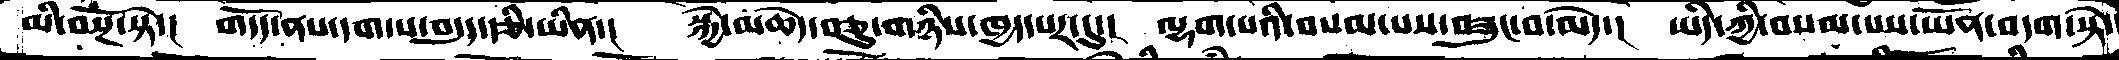མི་བསྔོ་སྟེ་།  གདོད་ནས་དག་པ་བདུད་རྩི་ཡིན་།   སྐྱེ་མཆེད་བཅུ་གཉིས་ཁྱད་པར་དུ་།  ལྷག་པའི་བསམ་པས་བཟུང་བ་མེད་།   ཡིད་ཀྱི་བསམ་པས་ཡོན་བདག་སྟེ་
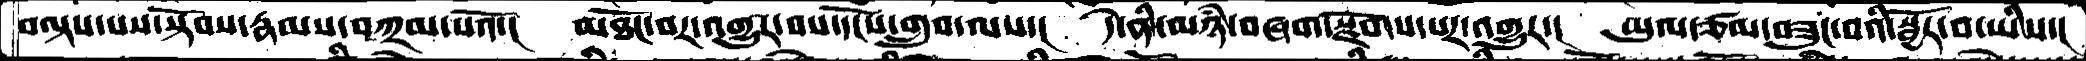བལྟས་པས་སྟོབས་རྣམས་བཀྲམ་པའོ་།   མཐོང་བར་འགྱུར་བས་དངོས་གྲུབ་ལས་།    དེ་ནི་མཉཾ་བཞག་སྫོགས་པར་འགྱུར་།   ཡུལ་ཙམ་བཟུང་བའི་སྦྱོར་བ་ཡིས་།
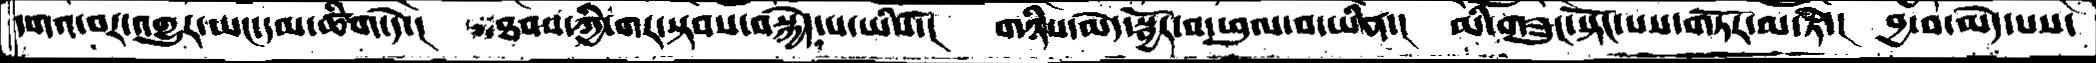དགའ་བར་འགྱུར་ཡང་དམ་ཚིག་དེ་།    ཐབས་ཀྱི་གར་སྟབས་བསྐྱེད་པ་ཡིས་།   གཉིས་མེད་སྦྱོར་བ་ཕུལ་བ་ཡིན་།   མི་གཟུང་སྟོང་པས་གཏོར་མ་ཏེ་།   བྱ་བ་མེད་པས་
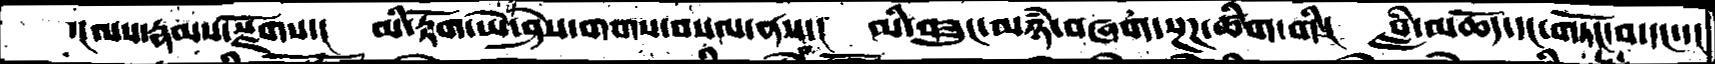་།ལས་རྣམས་སྫོགས་།    མི་རྟོག་ཡེ་ཤེས་གགས་བསལ་ནས་།   མི་བཟུང་མཉཾ་བཞག་སྔཌ་ཚིག་གི་།   བླཾ་མཆོད་དང་གཏོང་བ་དང་་།
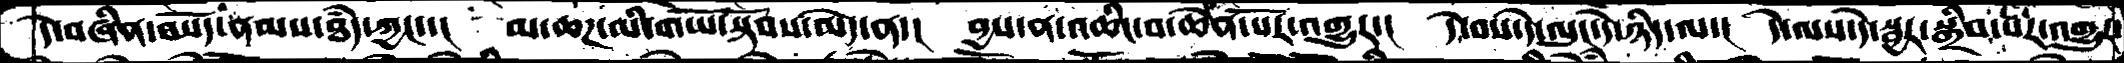དེ་བཞིན་བསོད་ནམས་ཐཾད་ཀྱང་་།   མ་ཆཌ་མི་གཡོ་སྟོབས་མེད་ན་།   བྱས་ན་འཆིང་བ་ཆེན་པོར་འགྱུར་།   དེ་བས་དེ་ལུང་དེ་ཉིད་ལ་།   དེ་ལས་དེ་སྦྱར་སྒྲིབ་པར་འགྱུར་
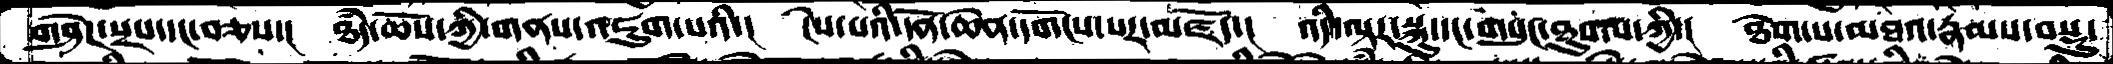གཤེཌ་སྲས་དང་བཅས་།  ཐཾད་ཆོས་ཀྱི་གནས་འཇུག་པའི་།  ངེས་པའི་དོན་ཆེན་དགོངས་པར་་མཛོད་།  འདི་ལྟར་སྐུ་དང་གསུང་ཐུགས་ཀྱི་།  ཐེག་པ་མཐའ་རྣམས་བསྡུ་
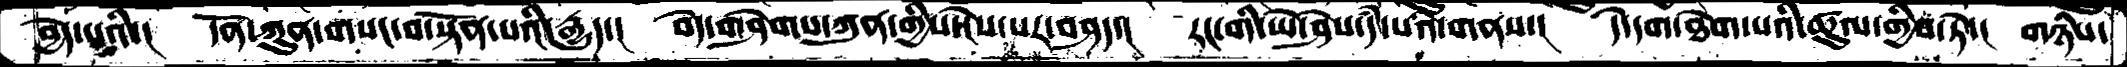བྱེད་པའི་།  དོན་ཀུན་གསང་བ་སྟོན་པའི་རྒྱུད་།  བདེ་གཤེགས་ཀུན་གྱིས་ངེས་པར་བཤད་།  རང་གི་ཡེ་ཤེས་དཾ་པའི་གནས་།  དེ་དག་ཐེག་པའི་ཚུལ་གྱིས་ཏེ་།  གཉིས་
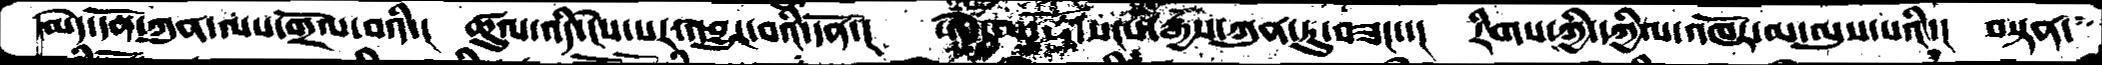མེད་དོན་ཀུན་ལས་གྲོལ་བའི་། ཚུལ་འདི་ངེས་པར་འབྱུང་བའི་དོན་།། ཨེ་མ་ཧོ་་སངས་རྒྱས་ཀུན་ཏུ་བཟང་་། རིགས་ཀྱི་དཀྱིལ་འཁོར་མ་ལུས་པའི་། བསྟན་
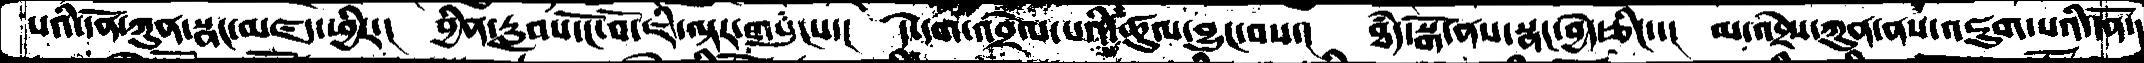པའི་དོན་ཀུན་སྣང་མཛད་ཕྱིར་།  བྱིན་རླབས་ངོ་བོ་ཇི་ལྟར་གསུངས་།  དེ་དག་འབྲེལ་པའི་ཚུལ་བྱུང་བས་།  ཐཾད་སྒོ་ནས་སྣང་བྱེད་ཅིང་་།  མ་འདྲེས་ཀུན་ནས་འཇུག་པའི་དོན་
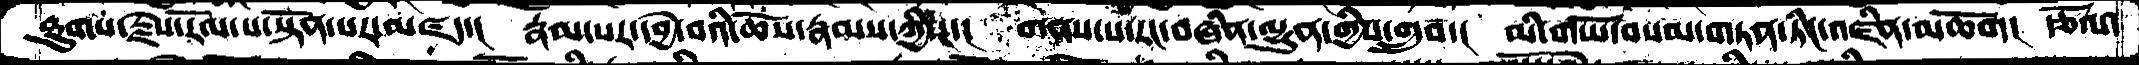ཐུགས་རྗེས་རོལ་པ་སྟོན་པར་མཛད་།  རྣམ་པར་དབྱེ་བའི་ཆོས་རྣམས་ཀྱིས་།  གནས་པ་རང་བཞིན་ལྷུན་གྱིས་གྲུབ་།  མི་གཡོ་་བསམ་གཏན་ཏིང་འཛིན་མཆོག།  རྩོལ་
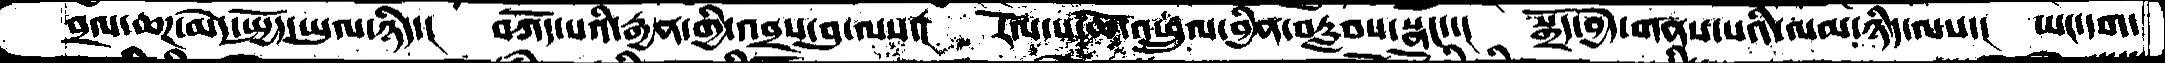བྲལ་ཆཌ་མེད་སྤྱོད་ཡུལ་ཉིད་།   བཀོད་པའི་རྒྱན་གྱི་འབྲས་བུ་ལས་།  རོལ་པ་ཆོ་འཕྲུལ་བྱིན་བརླབས་སྣང་་།  སྒྲོད་བྱེད་གནས་པའི་ལམ་ཉིད་ལས་།  ཡང་དག་
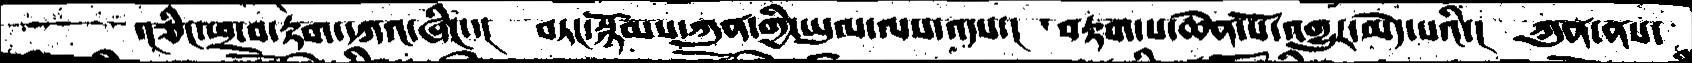་།ཅིང་ཕྲ་བ་རྟག་དཀའ་ཞིང་་།  བཏང་སྙོམས་ཀུན་གྱི་ཡུལ་ལས་འདས་།   བརྟག་པ་ཆེན་པོ་འགྱུར་མེད་པའི་།   ཀུན་ནས་
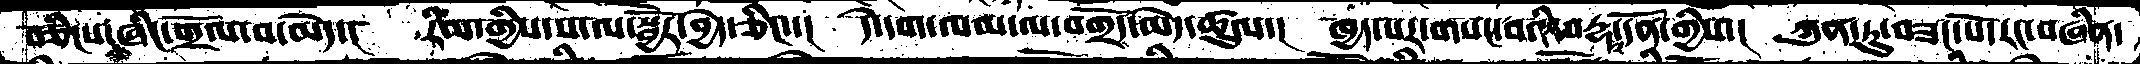བཅིངས་ཞིང་གྲོལ་བ་མེད་།   རིམ་གྱིས་ས་ལ་སྦྱོར་བྱེད་ཅིང་་།  དེ་དག་ལམ་ལ་བགྲོད་མེད་ཚུལ་།  ཁྱད་པར་གསང་བའི་བརྡ་དོན་གྱིས་།  ཀུན་ཏུ་བཟང་པོ་རང་བཞིན་
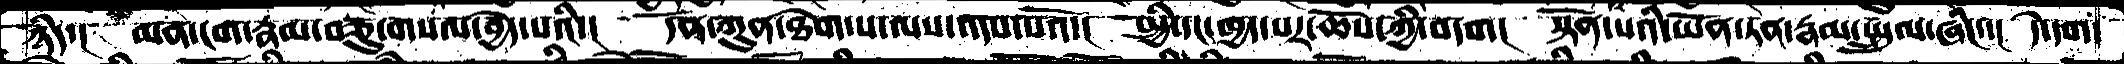ཉིད་།   མན་ངག་རྣམ་བཅུ་གསལ་བྱེད་པའི་།  དོན་ཀུན་ཐེག་པ་ལས་འདས་པའོ་།  སྤྱི་དང་ཁྱད་པར་ཆོས་ཀྱི་བདག།  སྟོན་པའི་ཡོན་ཏན་རྣམ་སྤྲུལ་ཞིང་་།  དེ་དག་
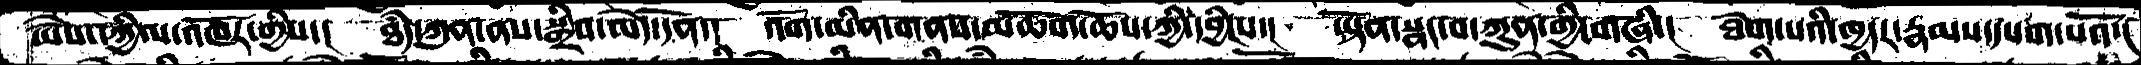ཡཻས་དཀྱིལ་འཁོར་གྱིས་།   ཐཾད་ཀུན་ནས་སྒྲིབ་མེད་དོན་།  འོག་མིན་གནས་མཆོག་ཆོས་ཀྱི་དབྱིངས་།  ཡྟོན་སྣང་བ་ཀུན་གྱི་གཞི་།  ཐེག་པའི་ཁྱདར་རྣམས་དཔག་པའོ་།
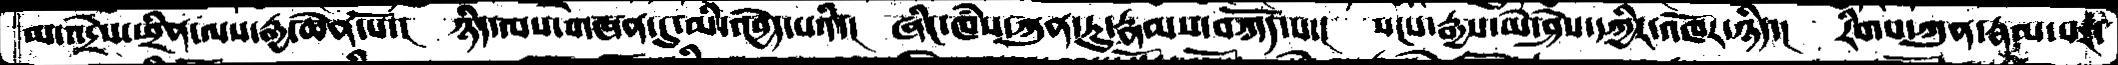མ་འདྲེས་ཕྲིན་ལས་རྒྱ་ཆེན་པོ་།  ཉིད་ལས་གཞན་དུ་མི་འབྱེད་པའི་།    ཞིང་ཁཾས་ཀུན་ཏུ་རྣམས་བཀོད་པ་།  སངས་རྒྱས་མེ་ཤེས་དཀྱིར་འཁོར་ཉིད་།  རིགས་ཀུན་རྣམ་པར་
